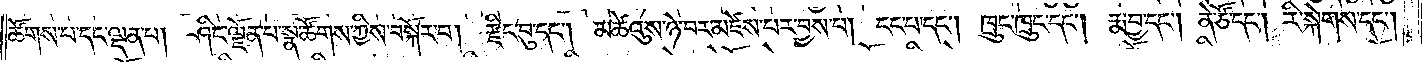ཚོགས་པ་དང་ལྡན་པ། ཤིང་ལྗོན་པ་སྣ་ཚོགས་ཀྱིས་བསྐོར་བ། རྫིང་བུ་དང༌། མཚེའུས་ཉེ་བར་མཛེས་པར་བྱས་པ། ངང་པ་དང༌། ཁྲུང་ཁྲུང་དང༌། རྨ་བྱ་དང༌། ནེ་ཙོ་དང༌། རི་སྐེགས་དང༌།
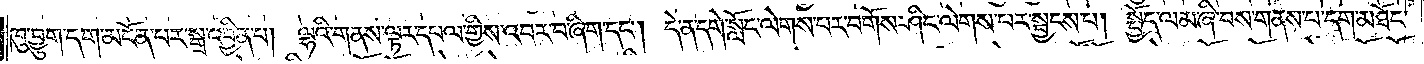ཁུ་བྱུག་དག་མངོན་པར་སྒྲ་འབྱིན་པ། ལྷའི་གནས་ལྟར་དཔལ་གྱིས་འབར་བ་ཞིག་དང༌། དེ་ན་དགེ་སློང་ལེགས་པར་བགོས་ཤིང་ལེགས་པར་སྦྱངས་པ། སྤྱོད་ལམ་ཞི་བས་གནས་པ་དག་མཐོང་
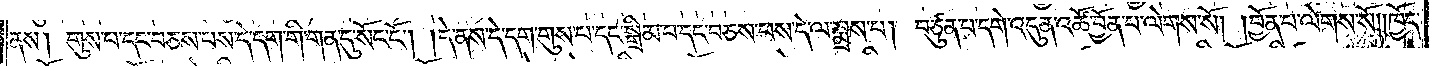ནས། གུས་པ་དང་བཅས་པས་དེ་དག་གི་གན་དུ་སོང་ངོ༌། །དེ་ནས་དེ་དག་གུས་པ་དང་སྒྲིམ་པ་དང་བཅས་པས་དེ་ལ་སྨྲས་པ། བཙུན་པ་དགེ་འདུན་འཚོ་བྱོན་པ་ལེགས་སོ། །བྱོན་པ་ལེགས་སོ། །ཁྱོད་
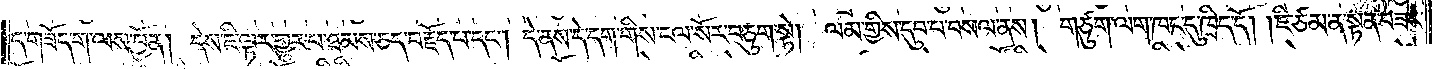ད་གཟོད་ག་ལས་བྱོན། དེས་ཇི་ལྟར་གྱུར་པ་ཐམས་ཅད་བརྗོད་པ་དང༌། དེ་ནས་དེ་དག་གིས་ངལ་སོར་བཅུག་སྟེ། ལམ་གྱིས་དུབ་པ་བསལ་ནས། གཙུག་ལག་ཁང་དུ་ཁྲིད་དོ། །ཇི་ཙམ་ན་སྟན་བཟང་
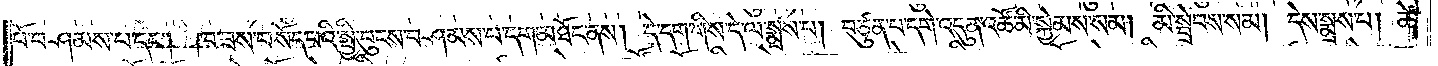པོ་བཤམས་པ་དང༌། ཁ་ཟས་བསོད་པའི་སྤྱི་བུངས་བཤམས་པ་དག་མཐོང་ནས། དེ་དག་གིས་དེ་ལ་སྨྲས་པ། བཙུན་པ་དགེ་འདུན་འཚོ་མི་སྐྱེམས་སམ། མི་སྦྲེབས་སམ། དེས་སྨྲས་པ། ཚེ་
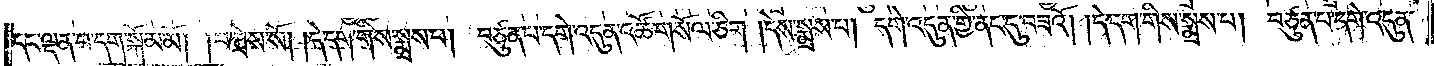དང་ལྡན་པ་དག་སྐོམ་མོ། །བཀྲེས་སོ། །དེ་དག་གིས་སྨྲས་པ། བཙུན་པ་དགེ་འདུན་འཚོ་གསོལ་ཅིག །དེས་སྨྲས་པ། དགེ་འདུན་གྱི་ནང་དུ་བཟའོ། །དེ་དག་གིས་སྨྲས་པ། བཙུན་པ་དགེ་འདུན་
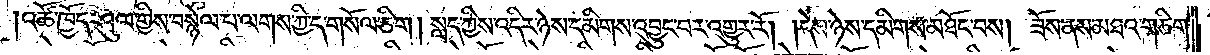འཚོ་ཁྱོད་ཤུལ་གྱིས་བསྙེལ་པ་ལགས་ཀྱི་ང་གསོལ་ཅིག །སླད་ཀྱིས་འདིར་ཉེས་དམིགས་འབྱུང་བར་འགྱུར་རོ། །དེས་ཉེས་དམིགས་མཐོང་བས། ཟོས་ནས་མཐའ་གཅིག་
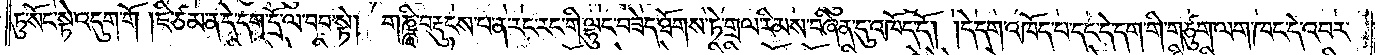ཏུ་སོང་སྟེ་འདུག་གོ །ཇི་ཙམ་ན་དེ་དག་དྲོ་ལ་བབ་སྟེ། གཎྜཱི་བརྡུངས་པ་ན་རང་རང་གི་ལྷུང་བཟེད་ཐོགས་ཏེ་གྲལ་རིམས་བཞིན་དུ་འཁོད་དོ། །དེ་དག་འཁོད་པ་དང་དེ་དག་གི་གཙུག་ལག་ཁང་དེ་འབར་
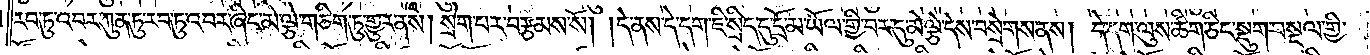རབ་ཏུ་འབར་ཀུན་ཏུ་རབ་ཏུ་འབར་ཞིང་མེ་ལྕེ་གཅིག་ཏུ་གྱུར་ནས། སྲེག་པར་བརྩམས་སོ། །དེ་ནས་དེ་དག་ཇི་སྲིད་དུ་དྲོ་མ་ཡོལ་གྱི་བར་དུ་མེ་ལྕེ་དེས་བསྲེགས་ནས། དེ་དག་ལུས་ཚིག་ཅིང་སྡུག་བསྔལ་གྱི་
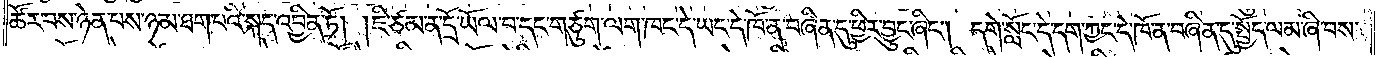ཚོར་བས་ཉེན་པས་ཉམ་ཐག་པའི་སྐད་འབྱིན་ཏོ། །ཇི་ཙམ་ན་དྲོ་ཡོལ་བ་དང་གཙུག་ལག་ཁང་དེ་ཡང་དེ་ཁོ་ན་བཞིན་དུ་ཕྱིར་བྱུང་ཞིང༌། དགེ་སློང་དེ་དག་ཀྱང་དེ་ཁོ་ན་བཞིན་དུ་སྤྱོད་ལམ་ཞི་བས་
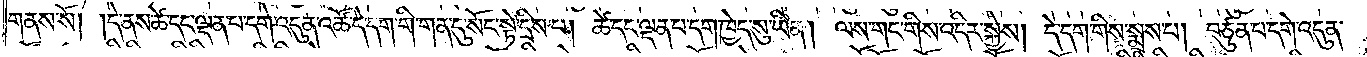གནས་སོ། །དེ་ནས་ཚེ་དང་ལྡན་པ་དགེ་འདུན་འཚོ་དེ་དག་གི་གན་དུ་སོང་སྟེ་དྲིས་པ། ཚེ་དང་ལྡན་པ་དག་ཁྱེད་སུ་ཡིན། ལས་གང་གིས་འདིར་སྐྱེས། དེ་དག་གིས་སྨྲས་པ། བཙུན་པ་དགེ་འདུན་
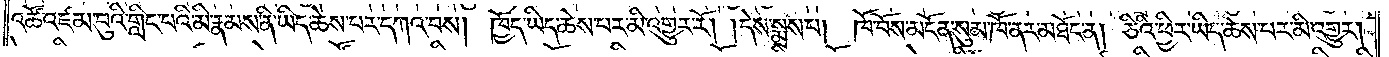འཚོ་འཛམ་བུའི་གླིང་པའི་མི་རྣམས་ནི་ཡིད་ཆེས་པར་དཀའ་བས། ཁྱོད་ཡིད་ཆེས་པར་མི་འགྱུར་རོ། །དེས་སྨྲས་པ། ཁོ་བོས་མངོན་སུམ་ཁོ་ནར་མཐོང་ན། ཅིའི་ཕྱིར་ཡིད་ཆེས་པར་མི་འགྱུར།
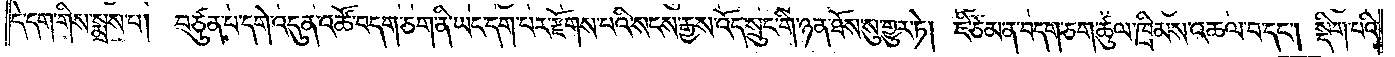དེ་དག་གིས་སྨྲས་པ། བཙུན་པ་དགེ་འདུན་འཚོ་བདག་ཅག་ནི་ཡང་དག་པར་རྫོགས་པའི་སངས་རྒྱས་འོད་སྲུང་གི་ཉན་ཐོས་སུ་གྱུར་ཏེ། ཇི་ཙམ་ན་བདག་ཅག་ཚུལ་ཁྲིམས་འཆལ་བ་དང༌། སྡིག་པའི་
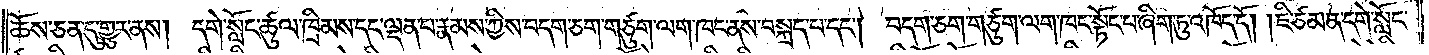ཆོས་ཅན་དུ་གྱུར་ནས། དགེ་སློང་ཚུལ་ཁྲིམས་དང་ལྡན་པ་རྣམས་ཀྱིས་བདག་ཅག་གཙུག་ལག་ཁང་ནས་བསྐྲད་པ་དང༌། བདག་ཅག་གཙུག་ལག་ཁང་སྟོང་བ་ཞིག་ཏུ་འཁོད་དོ། །ཇི་ཙམ་ན་དགེ་སློང་
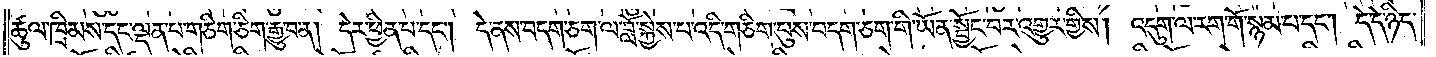ཚུལ་ཁྲིམས་དང་ལྡན་པ་གཅིག་ཅིག་རྒྱུ་བ་ན། དེར་ཕྱིན་པ་དང༌། དེ་ནས་བདག་ཅག་ལ་བློ་སྐྱེས་པ་འདི་གཅིག་བུས་བདག་ཅག་གི་ཡོན་སྦྱོང་བར་འགྱུར་གྱིས། འདུག་ལ་རག་གོ་སྙམ་པ་དང༌། དེ་དེ་ཉིད་
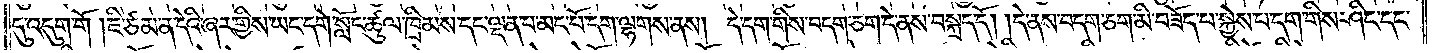དུ་འདུག་གོ །ཇི་ཙམ་ན་དེའི་ཞར་གྱིས་ཡང་དགེ་སློང་ཚུལ་ཁྲིམས་དང་ལྡན་པ་མང་པོ་དག་ལྷགས་ནས། དེ་དག་གིས་བདག་ཅག་དེ་ནས་བསྐྲད་དོ། །དེ་ནས་བདག་ཅག་མི་བཟོད་པ་སྐྱེས་པ་དག་གིས་ཤིང་དང་
